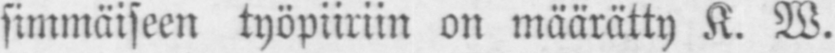simmäiseen työpiiriin on määrätty K. W.
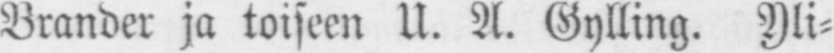Brander ja toiseen U. A. Gylling. Yli-
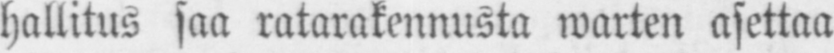hallitus saa ratarakennusta warten asettaa
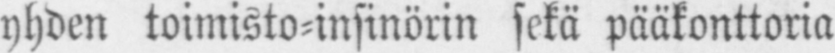yhden toimisto-insinörin sekä pääkonttoria
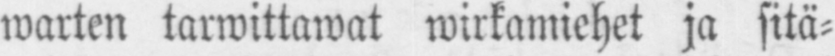warten tarwittawat wirkamiehet ja sitä-
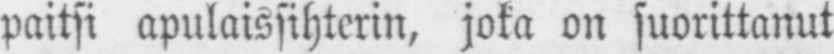paitsi apulaissihterin, joka on suorittanut
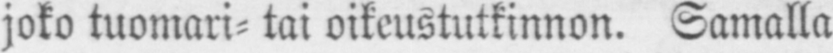joko tuomari- tai oikeustutkinnon. Samalla
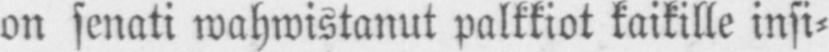on senati wahwistanut palkkiot kaikille insi-
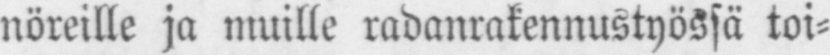nöreille ja muille radanrakennustyössä toi-
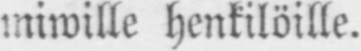miwille henkilöille.
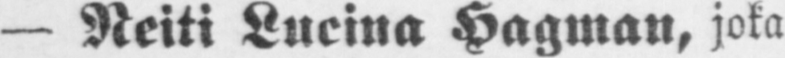— Neiti Lucina Hagman, joka
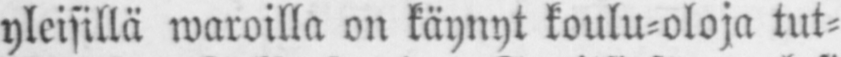yleisillä waroilla on käynyt koulu-oloja tut-
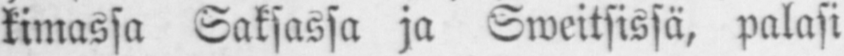kimassa Saksassa ja Sweitsissä, palasi
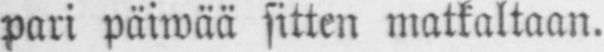pari päiwää sitten matkaltaan.
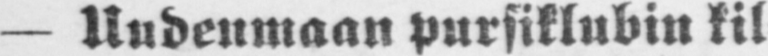— Uudenmaan pursiklubin kil-
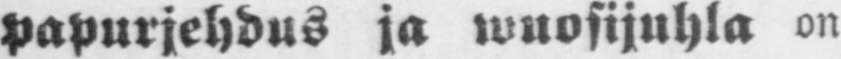papurjehdus ja wuosijuhla on
